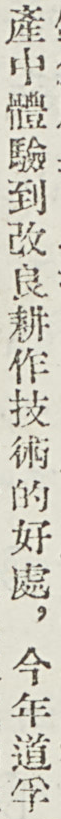產中體驗到改良耕作技術的好處，今年道孚
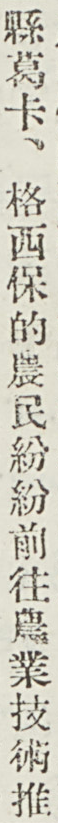縣葛卡、格西保的農民紛紛前往農業技術推
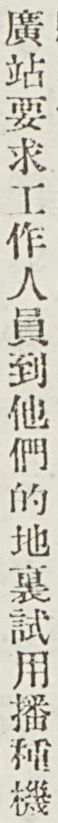廣站要求工作人員到他們的地裏試用播種機
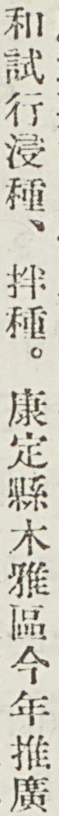和試行浸種、拌種。康定縣木雅區今年推廣
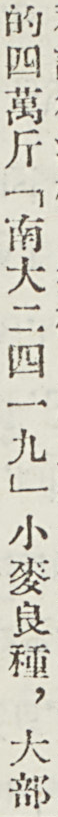的四萬斤「南大二四一九」小麥良種，大部
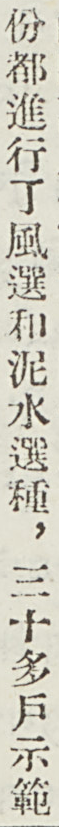分都進行了風選和泥水選種，三十多戶示範
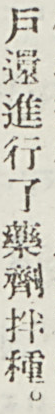戶還進行了藥劑拌種。
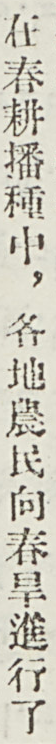在春耕播種中，各地農民向春旱進行了
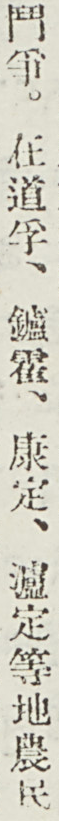鬥爭。在道孚、鑪霍、康定、瀘定等地農民
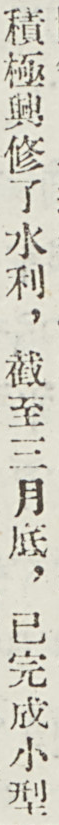積極興修了水利，截至三月底，已完成小型
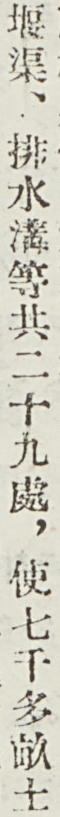堰渠、排水溝等共二十九處，使七千多畝土
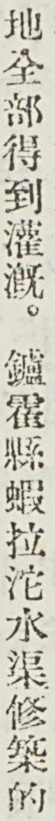地全部得到灌溉。鑪霍縣蝦拉沱水渠修築的
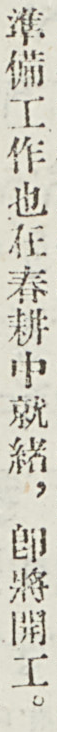準備工作也在春耕中就緒，卽將開工。
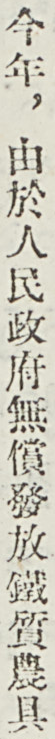今年，由於人民政府無償發放鐵質農具
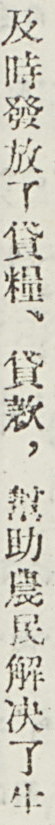及時發放了貸糧、貸款，幫助農民解決了生
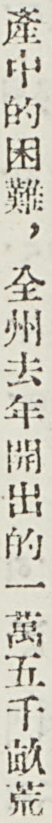產中的困難，全州去年開出的一萬五千畝荒
